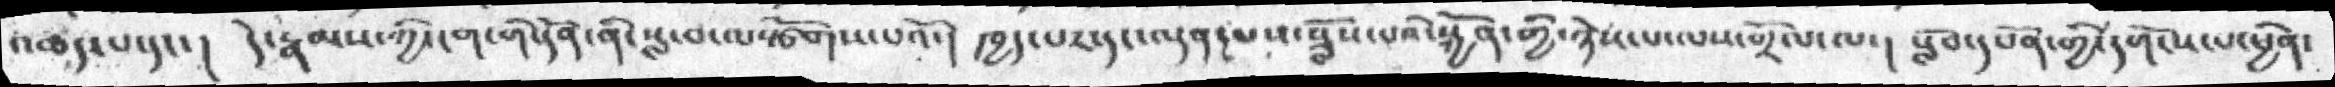འཆད་པ་དང་།  དེ་རྣམས་ཀྱི་ངག་གི་དོན་ནི་སླ་བ་ལསྩོགས་པའོ་།  ཁྱད་པར་དང་ལྡན་པས་ཟློས་པའི་སྐྱོན་གྱི་ཉེས་པ་ལས་གྲོལ་ལ་།  སློབ་དཔོན་གྱི་དགོངས་པ་ཕྱིན་
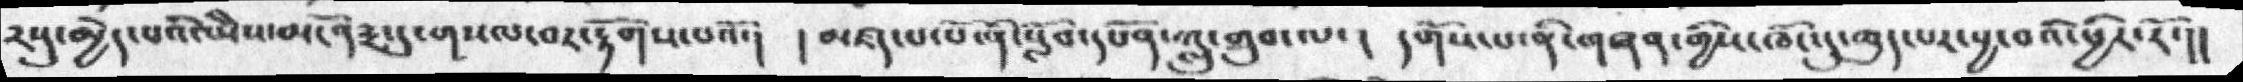༢སུ་མྱེད་པའི་ཡིས་མངོན༣་དུ་གསལ་བར་རྟོགས་པའོ་། ། མཛད་པ་པོ་ནི་སློབ་དཔོན་ཀླུ་གྲུབ་ལ་།  དགོས་པ་ནི་གཞན་གྱིས་ཁོང་དུ་ཆུད་པར་བྱ་བའི་ཕྱིར་རོ་།།
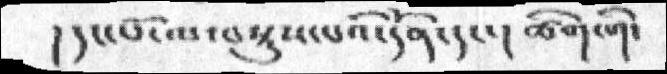། དང་པོ་ལ་བསྡུས་པའི་དོན་དང་།  ཚིག་གི་
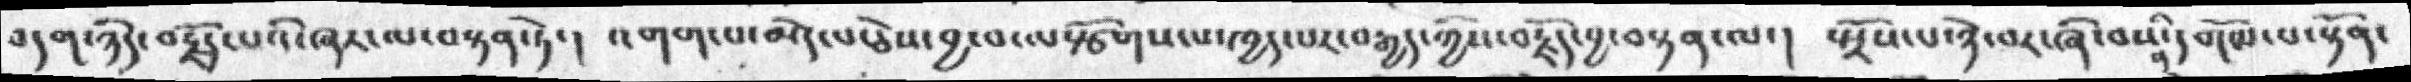བདག་ཉིད་བརྗོད་པའི་ཞར་ལ་བསྟན་ཏེ་།  འགག་པ་མེད་པ་ཅེས་བྱ་བ་ལརྩོགས་པ་ཁྱད་པར་བརྒྱད་ཀྱིས་བརྗོད་བྱ་བསྟན་ལ།  སྤྲོས་པ་ཉེ་བར་ཞི་བསྡི་དགོམ་པ་སྟོན་
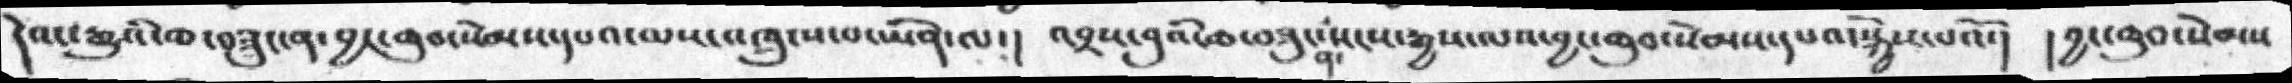དེའང་རྒྱུའི་ཆ་བཟུང་ན་བྱང་ཆུབ་སེམས་དཔའ་ལས་འཁྲུངས་པ་ཡིན་ལ་།  འབྲས་བུའི་ཆ་བཟུང་ན་སངས་རྒྱས་ལའ་བྱང་ཆུབ་སེམས་དཔའི་སྐྱེས་པའོ་།   བྱང་ཆུབ་སེམས
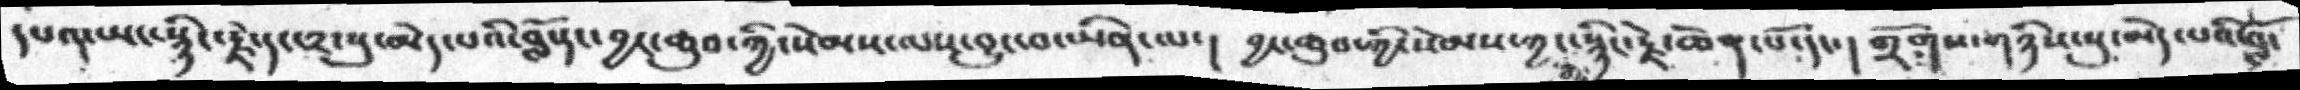དཔའ་ཡང་སྙིང་རྗེ་དང་༢་སུ་མེད་པའི་བློ་དང་བྱང་ཆུབ་ཀྱི་སེམས་ལས་བྱུང་བ་ཡིན་ལ་།  བྱང་ཆུབ་ཀྱི་སེམས་ཀྱང་སྙིང་རྗེ་ཆེན་པོ་དང་།  གྲོགས་གཉིས་སུ་མེད་པའི་བློ་
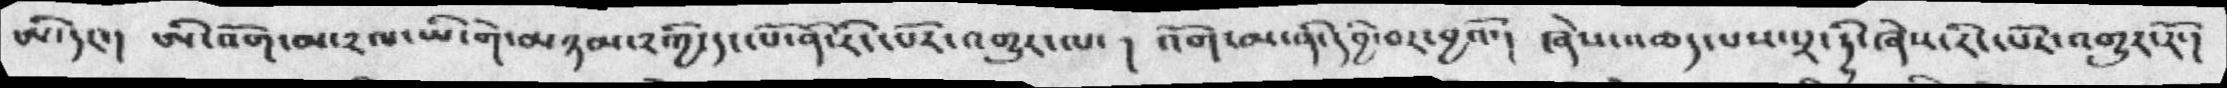ཨི་དང་།  ཨི་འོག་མ་༢ལ་ཡི་གེ་མཉམ་༢གྱི་དང་པོ་ནི་རིང་པོར་འགྱུར་ལ་ ། འོག་མ་ནི་དབྱེ་བར་བྱའོ་།  ཞེས་འཆད་པས་པྲ་ཏི་ཞེས་རིང་པོར་འགྱུར་རོ་།
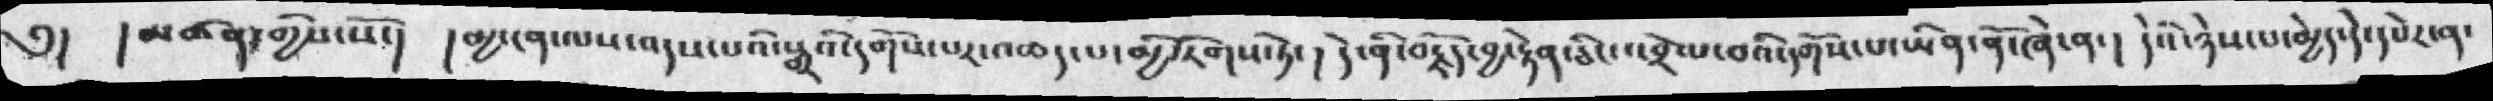༅།   ། མཚན་གྱིས་སོ་།   །མྱ་ངན་ལས་འདས་པའི་སྒྲའི་དགོས་པར་འཆད་པ་མྱི་རེགས་ཏེ་། དེ་ནི་བརྗོད་བྱ་རྟེན་ཅིང་འབྲེལ་བའི་དགོས་པ་ཡིན་ནོ་ཞེ་ན་། དེའི་ཉེས་པ་མྱེད་དེ་དཔེར་ན་
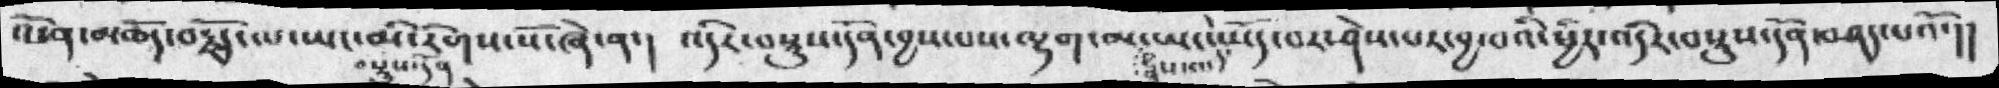འོ་ན་མཆོད་བརྗོད་པ་ཡང་མི་རིགས་སོ་ཞེ་ན་།   འདིར་བསྡུས་དོན་བྱས་པས་ལྷག་མ་ཡང་དེ་ཡོད་པར་ཤེས་པར་བྱ་བའི་ཕྱིར་འདིར་བསྡུས་དོན་བཤད་པའོ་།།
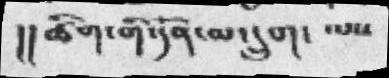།།ཚིག་གི་དོན་མ་དྲུག་   ལས་
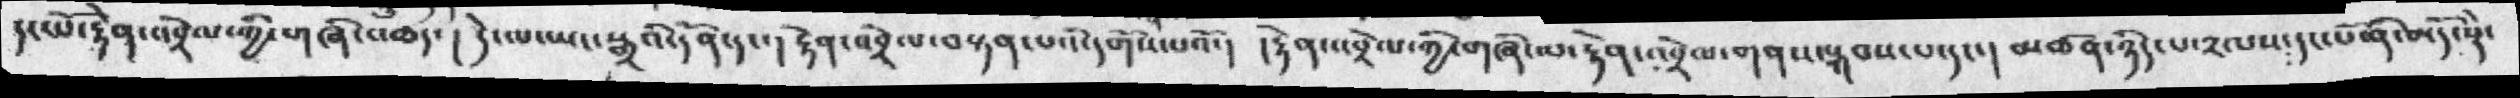དང་པོ་རྟེན་འབྲེལ་གྱི་གཞི་འཆད་།   དེ་ལ་ཡང་སྒྲའི་དོན་དང་།   རྟེན་འབྲེལ་བསྟན་པ་དི་དགོས་པའོ་།   ། རྟེན་འབྲེལ་ཀྱི་གཞི་ལ་རྟེན་འབྲེལ་གནས་སྐབས་པ་དང་།   མཚན་ཉིད་པ་༢ལས་དང་པོ་ནི་མདོ་སྡེ་
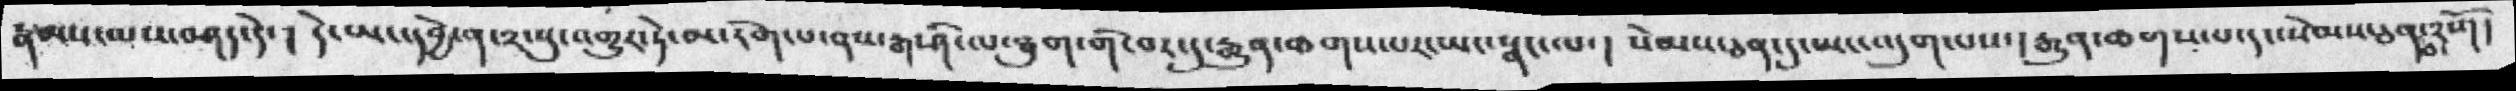རྣམས་མས་བཤད་དེ་།  དེ་ཡང་དབྱེ་ན་༢་སུ་འགྱུར་ཏེ་མ་རིག་པ་ནས་རྒ་ཤི་ལ་ཐུག་གི་བར་དུ་རྒྱུན་ཆགས་པར་ཡང་སྣང་ལ་།  སེམས་ཅན་དུ་ཡང་འདུག་པས་།   རྒྱུན་ཆགས་པ་དང་སེམས་ཅན་བ༢གོ།
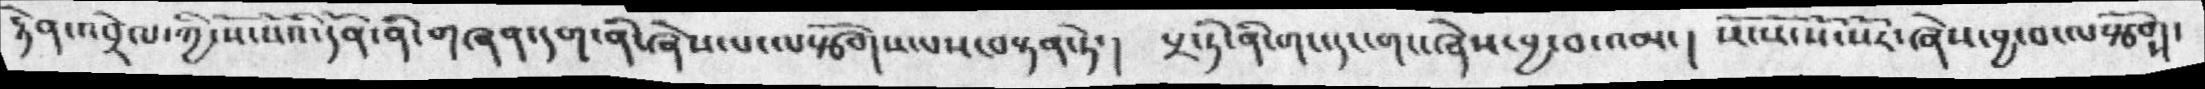རྟེན་འབྲེལ་ཀྱི་སོ་སོའི་དོན་ནི་གན་དག་ནི་ཞེས་པ་ལསྩོགས་པས་བསྟན་ཏེ་།  པྲ་ཏེ་ནི་གང་དང་གང་ཞེས་བྱ་བ་འམ་།  སོ་སོ་སོ་སོར་ཞེས་བྱ་བ་ལསྩོགས།
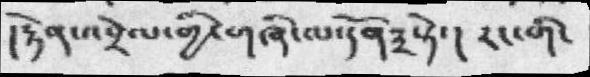།རྟེན་འབྲེལ་གྱི་གཞི་ལ་དོན༣སྟེ་།   རང་གི་
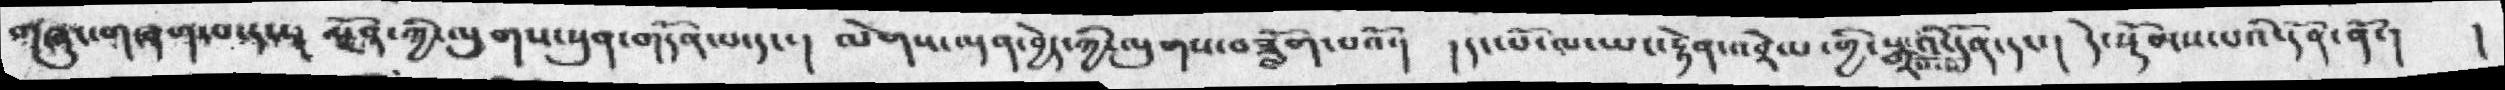གཞུང་གཞག་པ་དང་།  སྔོན་ཀྱི་ལུགས་སུན་གདོན་པ་དང་།  ལེགས་ལྡན་བྱེད་ཀྱི་ལུགས་བཟློག་པའོ་།  ། དང་པོ་ལ་ཡང་རྟེན་འབྲེལ་གྱི་སྒྲའི་དོན་དང་།   དེ་སྡོམས་པའི་དོན་ནོ་།  །
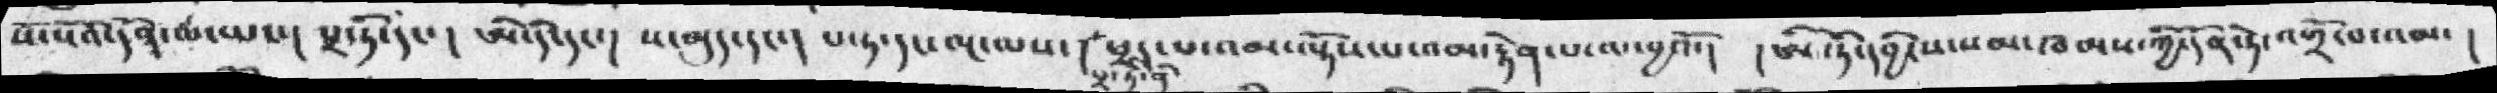སོ་སེའི་དོན་ཆ་ཡང་།  པྲ་ཏི་དང་།  ཨེདི་དང་།  ས་མུད་དང་།  པ་ཏ་དང་ལྔ་ལས།  པྲ་ཏི་ནི་ཕྲད་པ་འམ་ལྟོས་པ་འམ་རྟེན་པ་ལ་བྱའོ་།  །  ཨི་ཏི་དབྱིངས་སམ་ཁམས་ཀྱི་དོན་ཏེ་འགྲོ་བ་འམ་།
